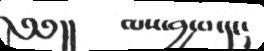༄༅།།   ལས་བྱ་བ་དང།
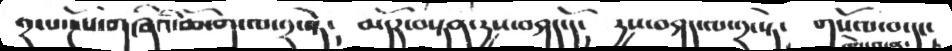༢་པ་རྔོས་གཞིའི་ཆོ་ག་ལ་༢་སྟེ༴  མདོར་བསྟན་རྱད་བཤད་དོ༴  རྱས་བཤད་ལ་༢་སྟེ༴  གསོལ་བ་དང༴
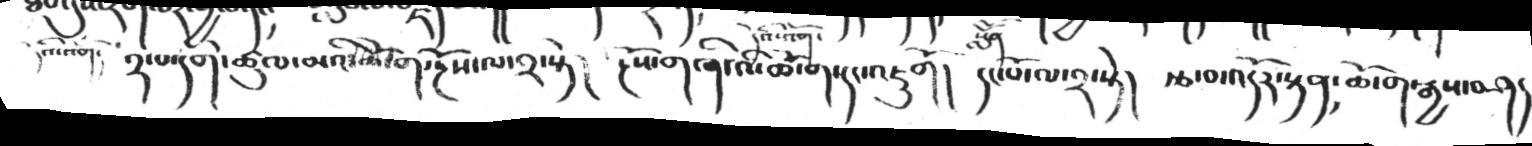དེའི་འོག།    ༢་པ་དགེ་ཚུལ་མའི་ཆོ་ག་རྔོས་ལ་༢་སྟེ།   རྔོས་གཞི་འི་ཆོ་ག་དང་འཇུགོ།    དང་པོ་ལ་༢་སྟེ།   རྩ་བ་འདོར་སྟན།ཆོ་ག་རྒྱས་བཤད་
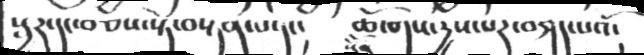སྦྱར་དང་བཅས་སྟེ་བསྟན་པ་དང༴  ཆོ་གང་རྱས་པར་བཤད་པའོ༴
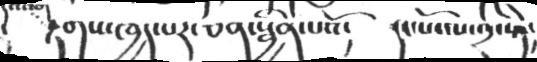རྟགས་ཁྱད་པར་ཅན་སྦྱིན་པའོ༴  དང་པོ་ལ་༣་སྟེ༴
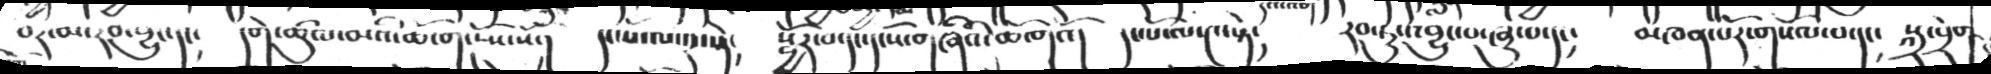བར་མ་རབ་བྱུང་དང།  དགེ་ཚུལ་མའི་ཆོ་ག་དངོས་སོ་།   དང་པོ་ལ་༢་སྟེ།   སྦྱོར་བ་དང་དངོས་གཞིའི་ཆོ་གའོ།   དང་པོ་ལ་༤་སྟེ།    རབ་ཏུ་འབྱུང་བ་ཞུ་པ་དང།  མཁན་པོར་གསོལ་པ་དང་ སྐྲ་བྲེག་
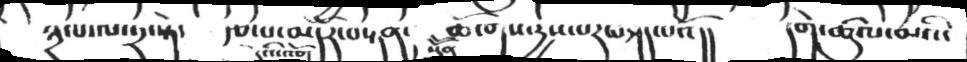༣་པ་ལ་༢་སྟེ་    རྩ་བ་མདོར་བསྟན་     ཆོ་གས་རྱས་པར་བཤད་པའོ།།    དགེ་ཚུལ་མའི་
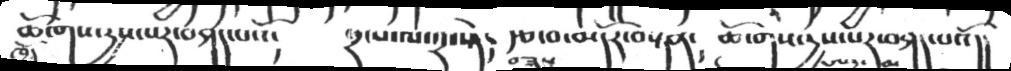ཆོ་གས་རྱས་པར་བཤད་པའོ།   ༢་པ་ལ་༢་སྟེ།   རྩ་བ་མདོར་བསྟན།   ཆོ་གས་རྱས་པར་བཤད་པའོ།།
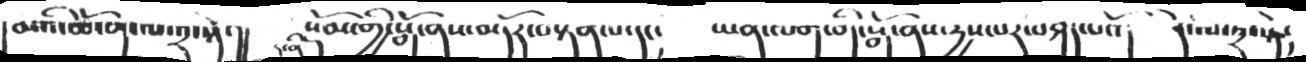མའི་ཆོ་ག་ལ་༢་སྟེ་།།    སོམ་གྱི་སྒོ་ནས་མདོར་བསྟན་པ་དང།   ཡན་ལག་གི་སྒོ་ནས་རྱས་པར་བཤད་པའོ།   དེ་ལ་༢་སྟེ།
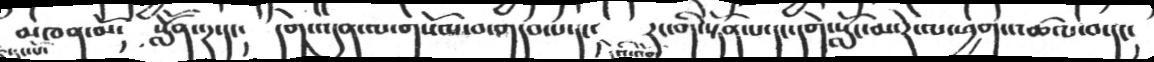མཁན་མོ།  སློོན་༢་དང།   དགེ་འདུན་ལ་གསོལ་བ་གདབ་པ་དང།    རང་གི་སྟོན་པ་དང་དགེ་སློང་མ་རེ་ལ་ཕྱགས་འཚལ་བ་དང་
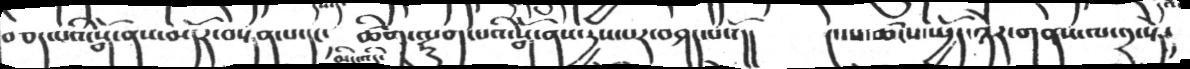བཅད་པའི་སྒོ་ནས་མདོར་བསྟན་པ་དང།   ཚིག་ལྷུག་པའི་སྒོ་ནས་རྱས་པར་བཤད་པསོ།།    ༤་པ་ཚངས་ཡྱོད་ཉེར་གནས་ལ་༢་སྟེ།
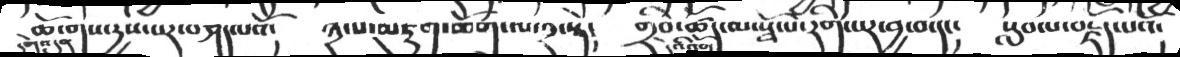ཆོ་གས་རྱས་པར་བཤད་པའོ༴    ༣་པ་མཇུག་ཆོག་ལ་༢་སྟེ༴   གྲིབ་ཚོད་ལ་སྭོ་པ་རིག་པར་བྱ་བ་དང༴  སླབ་པ་བརྗོད་པའོ༴
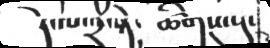དེ་ལ་༢་སྟེ། ཚིགས་སུ་
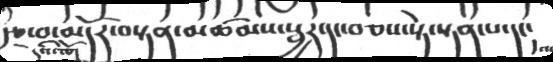རྩ་བ་མདོར་བསྟན་མཚམས་སྦྱར་དང་བཅས་སྟེ་སྟན་པ་དང༴
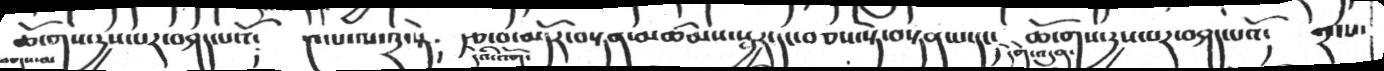ཆོ་གས་རྱས་པར་བཤད་པའོ༴  ༤་པ་ལ་༢་སྟེ༴   རྩ་བ་མདོར་བསྟན་མཚམས་སྦྱར་དང་བཅས་སྟེ་བསྟན་པ་དང༴  དགེ་འདུན་ཆོ་གས་རྱས་པར་བཤད་པའོ༴  ༢་པ་
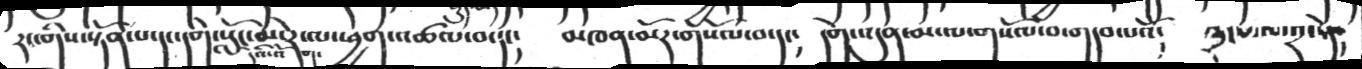རང་གིས་སྟོན་པ་དང་དགེ་སློང་མ་རེ་ལ་ཕྱག་འཚལ་བ་དང༴  མཁན་མོར་གསོལ་བ་དང༴  དགེ་འདུན་མ་ལ་གསོལ་བ་གདབ་པའོ༴  ༣་པ་ལ་༢་སྟེ༴
